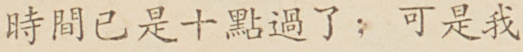時間已是十點過了；可是我
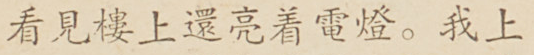看見樓上還亮着電燈。我上
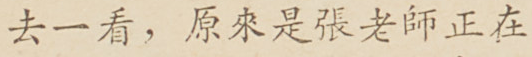去一看，原來是張老師正在
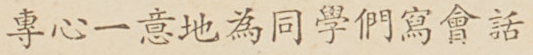專心一意地為同學們寫會話
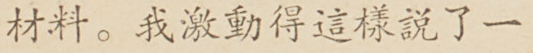材料。我激動得這樣說了一
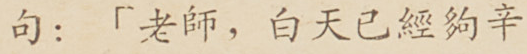句：「老師，白天已經夠辛
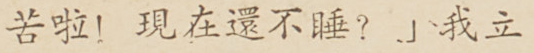苦啦！現在還不睡？」我立
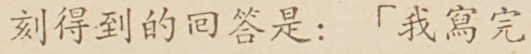刻得到的回答是：「我寫完
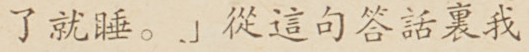了就睡。」從這句答話裏我
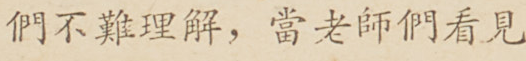們不難理解，當老師們看見
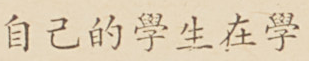自己的學生在學
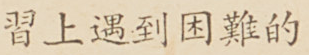習上遇到困難的
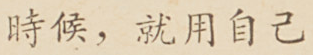時候，就用自己
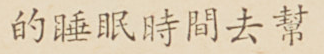的睡眠時間去幫
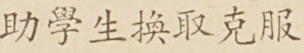助學生換取克服
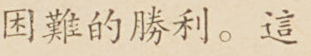困難的勝利。這
